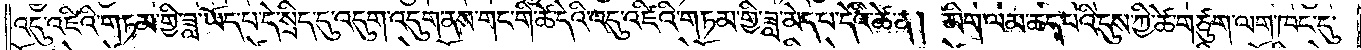འདུ་འཛིའི་གཏམ་གྱི་ཟླ་ཡོད་པ་དེ་སྲིད་དུ་འདུག་འདུག་ནས་གང་གི་ཚེ་དེའི་འདུ་འཛིའི་གཏམ་གྱི་ཟླ་མེད་པ་དེའི་ཚེ་ན། མིག་ལམ་ཆད་པའི་དུས་ཀྱི་ཚེ་གཙུག་ལག་ཁང་དུ་
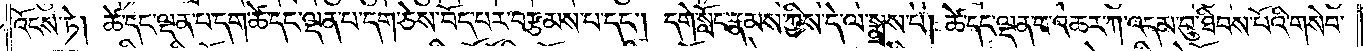འོངས་ཏེ། ཚེ་དང་ལྡན་པ་དག་ཚེ་དང་ལྡན་པ་དག་ཅེས་བོད་པར་བརྩམས་པ་དང༌། དགེ་སློང་རྣམས་ཀྱིས་དེ་ལ་སྨྲས་པ། ཚེ་དང་ལྡན་པ་འཆར་ཀ་འདམ་བུ་ཐིབས་པོའི་གསེབ་
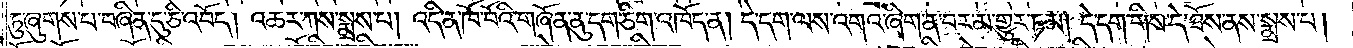ཏུ་ཞུགས་པ་བཞིན་དུ་ཅི་འབོད། འཆར་ཀས་སྨྲས་པ། འདི་ན་ཁོ་བོའི་གཞོན་ནུ་དག་ཅིག་འཁོད་ན། དེ་དག་ལས་འགའ་ཞིག་ན་བར་མ་གྱུར་ཏམ། དེ་དག་གིས་དེ་ཐོས་ནས་སྨྲས་པ།
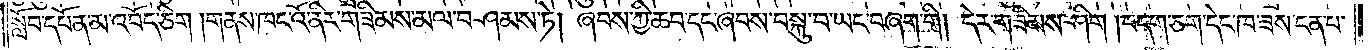སློབ་དཔོན་མ་འབོད་ཅིག །གནས་ཁང་འོ་ནིར་གཟིམས་མལ་བཤམས་ཏེ། ཞབས་ཀྱི་ཆབ་དང་ཞབས་བསྐུ་བ་ཡང་བཞག་གི། དེར་གཟིམས་ཤིག །བདག་ཅག་དེང་ཁ་ཟས་ངན་པ་
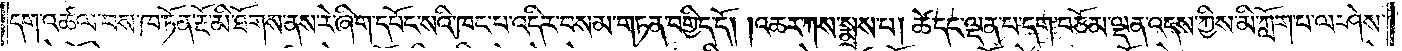དག་འཚལ་བས་ཁ་ཏོན་རྔོ་མི་ཐོགས་ནས་རེ་ཞིག་དཔོང་སའི་ཁང་པ་འདིར་བསམ་གཏན་བགྱིད་དོ། །འཆར་ཀས་སྨྲས་པ། ཚེ་དང་ལྡན་པ་དག་བཅོམ་ལྡན་འདས་ཀྱིས་མི་ཀློག་པ་ལ་ཤེས་
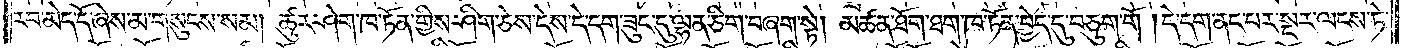རབ་མེད་དོ་ཞེས་མ་གསུངས་སམ། ཚུར་ཤེག་ཁ་ཏོན་གྱིས་ཤིག་ཅེས་དེས་དེ་དག་ཟུང་དུ་ལྷན་ཅིག་བཞག་སྟེ། མཚན་ཐོག་ཐག་ཁ་ཏོན་བྱེད་དུ་བཅུག་གོ །དེ་དག་ནང་པར་སྔར་ལངས་ཏེ་
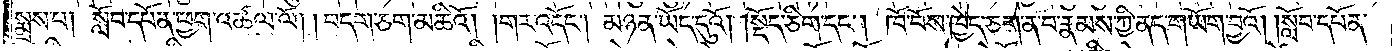སྨྲས་པ། སློབ་དཔོན་ཕྱག་འཚལ་ལོ། །བདག་ཅག་མཆིའོ། །གར་འདོང༌། མཉན་ཡོད་དུའོ། །སྡོད་ཅིག་དང༌། ཁོ་བོས་ཁྱེད་ཅག་ན་བ་རྣམས་ཀྱི་ནད་གཡོག་བྱའོ། །སློབ་དཔོན་
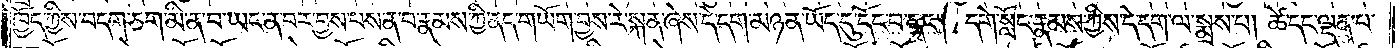ཁྱོད་ཀྱིས་བདག་ཅག་མི་ན་བ་ཡང་ན་བར་བྱས་པས་ན་བ་རྣམས་ཀྱི་ནད་གཡོག་བྱས་རེ་སྐན་ཞེས་དེ་དག་མཉན་ཡོད་དུ་དོང་བ་དང༌། དགེ་སློང་རྣམས་ཀྱིས་དེ་དག་ལ་སྨྲས་པ། ཚེ་དང་ལྡན་པ་
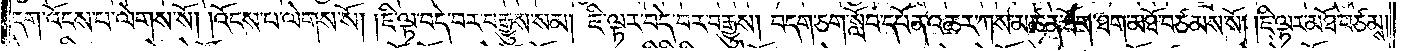དག་འོངས་པ་ལེགས་སོ། །འོངས་པ་ལེགས་སོ། །ཇི་ལྟ་བདེ་བར་བརྒྱུས་སམ། ཇི་ལྟར་བདེ་བར་བརྒྱུས། བདག་ཅག་སློབ་དཔོན་འཆར་ཀས་མཚན་ཐོག་ཐག་མཐོ་བཙམས་སོ། །ཇི་ལྟར་མཐོ་བཙམས་
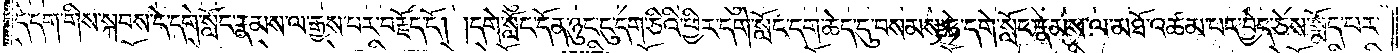དེ་དག་གིས་སྐབས་དེ་དགེ་སློང་རྣམས་ལ་རྒྱས་པར་བརྗོད་དོ། །དགེ་སློང་དོན་ཉུང་ངུ་དག་ཅིའི་ཕྱིར་དགེ་སློང་དག་ཆེད་དུ་བསམས་ཏེ་དགེ་སློང་རྣམས་ལ་མཐོ་འཚམ་པར་བྱེད་ཅེས་སྨོད་པར་
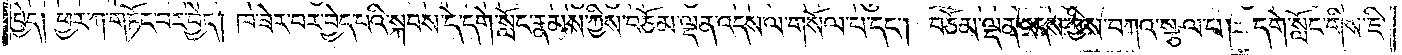བྱེད། ཕྱར་ཀ་གཏོང་བར་བྱེད། ཁ་ཟེར་བར་བྱེད་པའི་སྐབས་དེ་དགེ་སློང་རྣམས་ཀྱིས་བཅོམ་ལྡན་འདས་ལ་གསོལ་པ་དང༌། བཅོམ་ལྡན་འདས་ཀྱིས་བཀའ་སྩལ་པ། དགེ་སློང་གིས་ཇི་
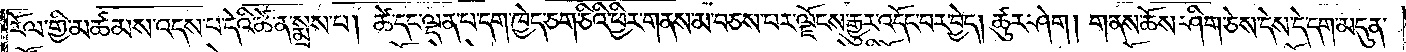རོལ་གྱི་མཚམས་འདས་པ་དེའི་ཚེ་ན་སྨྲས་པ། ཚེ་དང་ལྡན་པ་དག་ཁྱེད་ཅག་ཅིའི་ཕྱིར་གནས་མ་བཅས་པར་ལྗོངས་རྒྱུར་འདོང་བར་བྱེད། ཚུར་ཤེག། གནས་ཆོས་ཤིག་ཅེས་དེས་དེ་དག་མདུན་
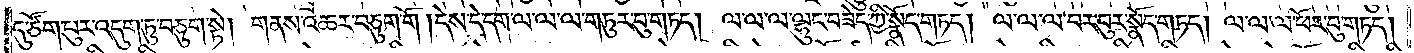དུ་ཙོག་པུར་འདུག་ཏུ་བཅུག་སྟེ། གནས་འཆར་བཅུག་གོ །དེས་དེ་དག་ལ་ལ་ལ་གཏུར་བུ་གཏད། ལ་ལ་ལ་ལྷུང་བཟེད་ཀྱི་སྣོད་གཏད། ལ་ལ་ལ་བར་བུར་སྣོད་གཏད། ལ་ལ་ཕོར་བུ་གཏད།
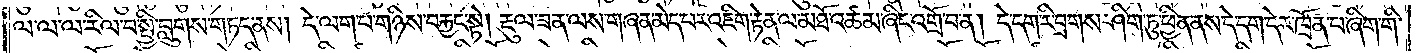ལ་ལ་ལ་རིལ་པ་སྤྱི་བླུགས་གཏད་ནས། དེ་ལག་པ་གཉིས་བརྐྱང་སྟེ། རྡུལ་ཟན་ལས་གཞན་མེད་པར་འཇིག་རྟེན་ལ་མཐོ་འཚམ་ཞིང་འགྲོ་བ་ན། དེ་དག་རི་བྲགས་ཤིག་ཏུ་ཕྱིན་ནས་དེ་དག་དེར་ཁྲོན་པ་ཞིག་གི་
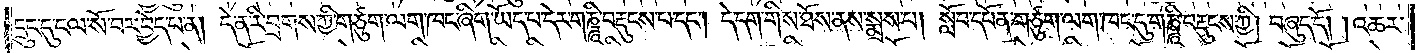དྲུང་དུ་ངལ་སོ་བར་བྱེད་པ་ན། དེ་ན་རི་བྲགས་ཀྱི་གཙུག་ལག་ཁང་ཞིག་ཡོད་པ་དེར་གཎྜཱི་བརྡུངས་པ་དང༌། དེ་དག་གིས་ཐོས་ནས་སྨྲས་པ། སློབ་དཔོན་གཙུག་ལག་ཁང་དུ་གཎྜཱི་བརྡུངས་ཀྱི། བཞུད་དོ། འཆར་
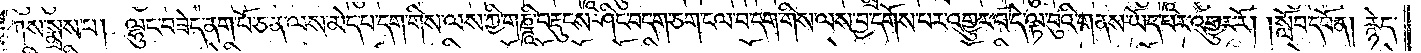ཀས་སྨྲས་པ། ལྷུང་བཟེད་ནག་པོ་ཅན་ལས་མེད་པ་དག་གིས་ལས་ཀྱི་གཎྜཱི་བརྡུངས་ཤིང་བདག་ཅག་ངལ་བ་དག་གིས་ལས་བྱ་དགོས་པར་འགྱུར་བ་དེ་ལྟ་བུའི་གནས་ཡོད་པར་འགྱུར་རོ། །སློབ་དཔོན། རྙེད་
